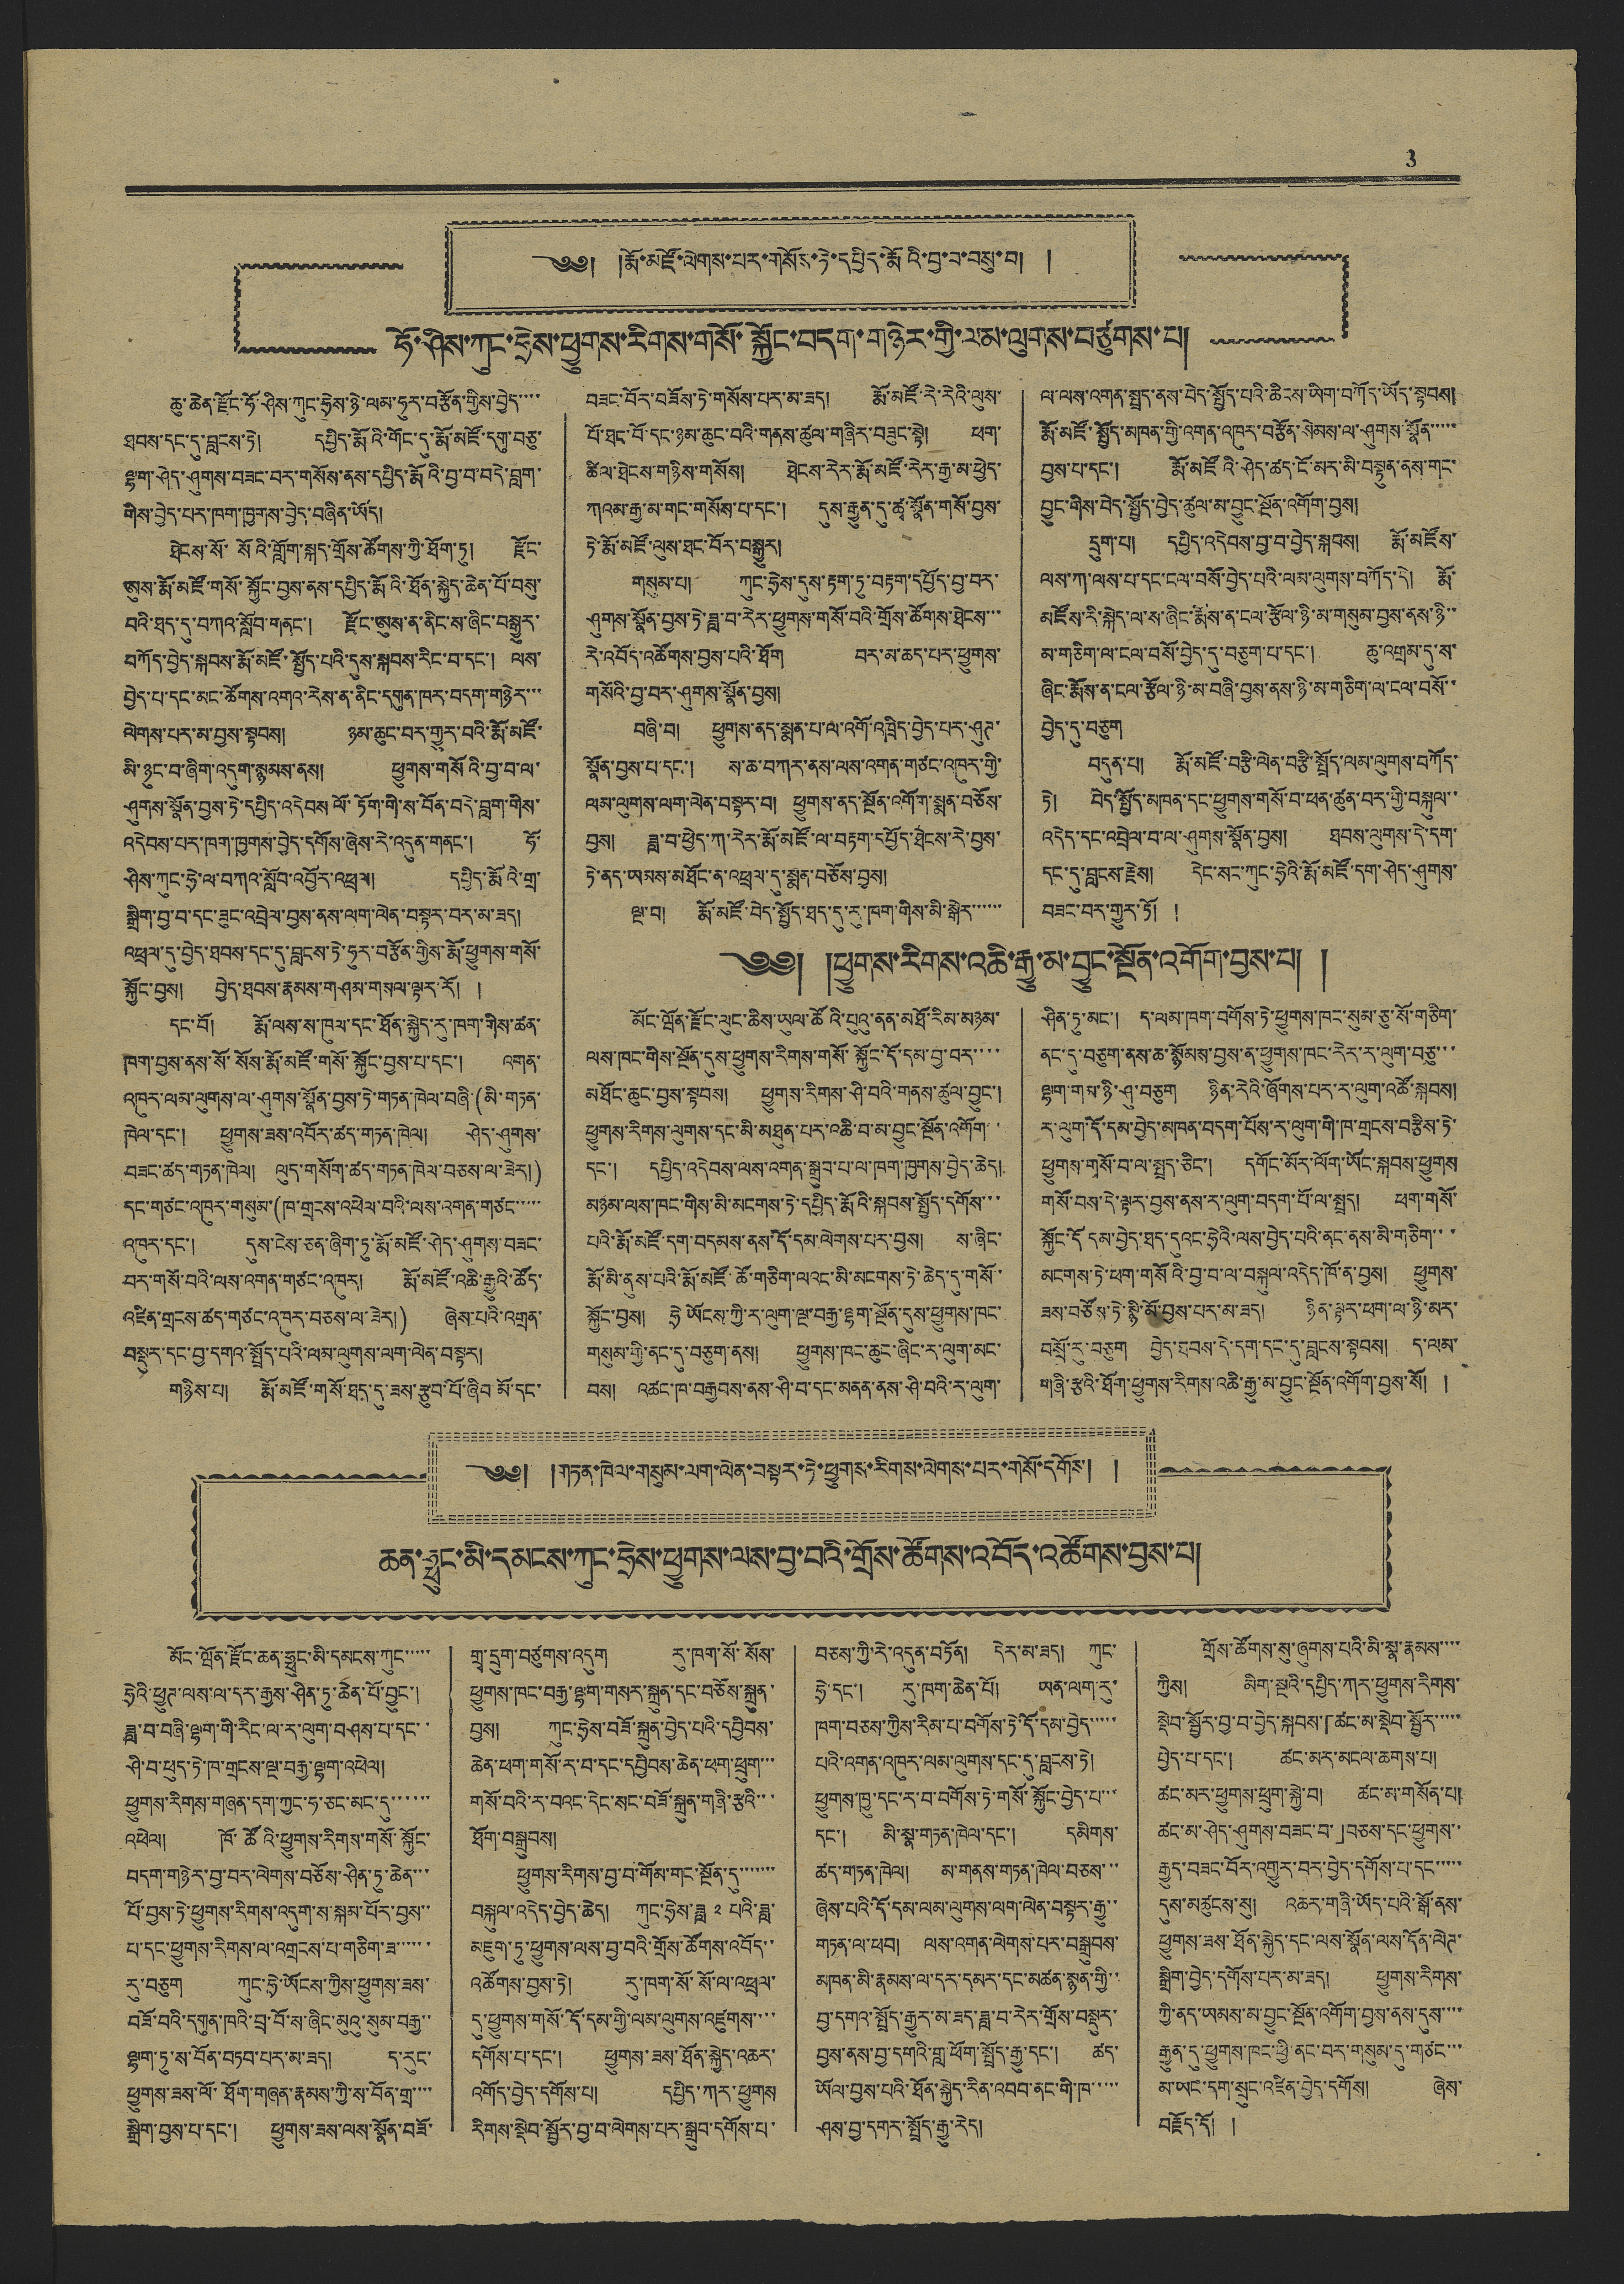3
༄༅། །རྨོ་མཛོ་ལེགས་པར་གསོས་ཏེ་དཔྱིད་རྨོའི་བྱ་བ་བསུ་བ། །
ཧོ་ཤིས་ཀུང་ཧྲེས་ཕྱུགས་རིགས་གསོ་སྐྱོང་བདག་གཉེར་གྱི་ལམ་ལུགས་བཙུགས་པ།
ཆུ་ཆེན་རྫོང་ཧོ་ཤིས་ཀུང་ཧྲེས་ཉེ་ལམ་ཧུར་བརྩོན་གྱིས་བྱེད་་་་
ཐབས་དང་དུ་བླངས་ཏེ། དཔྱིད་རྨོའི་གོང་དུ་རྨོ་མཛོ་དགུ་བཅུ་
ལྷག་ཤེད་ཤུགས་བཟང་བར་གསོས་ནས་དཔྱིད་རྨོའི་བྱ་བ་བདེ་བླག་
གིས་བྱེད་པར་ཁག་ཁྱགས་བྱེད་བཞིན་ཡོད།
ཐེངས་སོ་སོའི་གློག་སྐད་གྲོས་ཐོགས་ཀྱི་ཐོག་ཏུ། རྫོང་
ཨུས་རྨོ་མཛོ་གསོ་སྐྱོང་བྱས་ནས་དཔྱིད་རྨོའི་ཐོན་སྐྱེད་ཆེན་པོ་བསུ་
བའི་ཐད་དུ་བཀའ་སློབ་གནང་། རྫོང་ཨུས་ན་ནིང་ས་ཞིང་བསྒྱུར་
བཀོད་བྱེད་སྐབས་རྨོ་མཛོ་སྤྱོད་པའི་དུས་སྐབས་རིང་བ་དང་། ལས་
བྱེད་པ་དང་མང་ཚོགས་འགའ་རེས་ན་ནིང་དགུན་ཁར་བདག་གཉེར་་་
ལེགས་པར་མ་བྱས་སྟབས། ཉམ་ཆུང་བར་གྱུར་བའི་རྨོ་མཛོ་
མི་ཉུང་བ་ཞིག་འདུག་སྙམས་ནས། ཕྱུགས་གསོའི་བྱ་བ་ལ་
ཤུགས་སྣོན་བྱས་ཏེ་དཔྱིད་འདེབས་ལོ་ཏོག་གི་ས་བོན་བདེ་བླག་གིས་
འདེབས་པར་ཁག་ཁྱགས་བྱེད་དགོས་ཞེས་རེ་འདུན་གནང་། ཧོ་
ཤིས་ཀུང་ཧྲེ་ལ་བཀའ་སློབ་འབྱོར་འཕྲལ། དཔྱིད་རྨོའི་གྲ་
སྒྲིག་བྱ་བ་དང་ཟུང་འབྲེལ་བྱས་ནས་ལག་ལེན་བསྟར་བར་མ་ཟད།
འཕྲལ་དུ་བྱེད་ཐབས་དང་དུ་བླངས་ཏེ་ཧུར་བརྩོན་གྱིས་རྨོ་ཕྱུགས་གསོ་
སྐྱོང་བྱས། བྱེད་ཐབས་རྣམས་གཤམ་གསལ་ལྟར་རོ། །
དང་བོ། རྨོ་ལས་ས་ཁུལ་དང་ཐོན་སྐྱེད་རུ་ཁག་གིས་ཚན་
ཁག་བྱས་ནས་སོ་སོས་རྨོ་མཛོ་གསོ་སྐྱོང་བྱས་པ་དང་། འགན་
འཁུར་ལམ་ལུགས་ལ་ཤུགས་སྣོན་བྱས་ཏེ་གཏན་ཁེལ་བཞི་(མི་གཏན་
ཁེལ་དང་། ཕྱུགས་ཟས་འབོར་ཚད་་གཏན་ཁེལ། ཤེད་ཤུགས་
བཟང་ཚད་གཏན་ཁེལ། ལུད་གསོག་ཚད་གཏན་ཁེལ་བཅས་ལ་ཟེར།)
དང་གཙང་འཁུར་གསུམ་(ཁ་གྲངས་འཕེལ་བའི་ལས་འགན་གཙང་་་་་
འཁུར་དང་། དུས་ངེས་ཅན་ཞིག་ཏུ་རྨོ་མཛོ་ཤེད་ཤུགས་བཟང་
བར་གསོ་བའི་ལས་འགན་གཙང་འཁུར། རྨོ་མཛོ་འཆི་རྒྱུའི་ཚོད་
འཛིན་གྲངས་ཚད་གཙང་འཁུར་བཅས་ལ་ཟེར།) ཞེས་པའི་འགྲན་
བསྡུར་དང་བྱ་དགའ་སྤྲོད་པའི་ལམ་ལུགས་ལག་ལེན་བསྟར།
གཉིས་པ། རྨོ་མཛོ་གསོ་ཐད་དུ་ཟས་རྩུབ་པོ་ཞིབ་མོ་དང་
བཟང་བོར་བཟོས་ཏེ་གསོས་པར་མ་ཟད། རྨོ་མཛོ་རེ་རེའི་ལུས་
པོ་ཐང་བོ་དང་ཉམ་ཆུང་བའི་གནས་ཚུལ་གཞིར་བཟུང་སྟེ། ཕག་
ཚིལ་ཐེངས་གཉིས་གསོས། ཐེངས་རེར་རྨོ་མཛོ་རེར་རྒྱ་མ་ཕྱེད་
ཀའམ་རྒྱ་མ་གང་གསོས་པ་དང་། དུས་རྒྱུན་དུ་ཚྭ་སྣོན་གསོ་བྱས་
ཏེ་རྨོ་མཛོ་ལུས་ཐང་བོར་བསྒྱུར།
གསུམ་པ། ཀུང་ཧྲེས་དུས་རྟག་ཏུ་བརྟག་དཔྱོད་བྱ་བར་
ཤུགས་སྣོན་བྱས་ཏེ་ཟླ་བ་རེར་ཕྱུགས་གསོ་བའི་གྲོས་ཚོགས་ཐེངས་་་
རེ་འབོད་འཚོགས་བྱས་པའི་ཐོག བར་མ་ཆད་པར་ཕྱུགས་
གསོའི་བྱ་བར་ཤུགས་སྣོན་བྱས།
བཞི་བ། ཕྱུགས་ནད་སྨན་པ་ལ་འགོ་འཁྲིད་བྱེད་པར་ཤུཊ་
སྣོན་བྱས་པ་དང་། ས་ཆ་བཀར་ནས་ལས་འགན་གཙང་འཁུར་གྱི་
ལམ་ལུགས་ལག་ལེན་བསྟར་བ། ཕྱུགས་ནད་སྔོན་འགོག་སྨན་བཅོས་
བྱས། ཟླ་བ་ཕྱེད་ཀ་རེར་རྨོ་མཛོ་ལ་བརྟག་དཔྱོད་ཐེངས་རེ་བྱས་
ཏེ་ནད་ཡམས་མཐོང་ན་འཕྲལ་དུ་སྨན་བཅོས་བྱས།
ལྔ་བ། རྨོ་མཛོ་བེད་སྤྱོད་ཐད་དུ་རུ་ཁག་གིས་མི་སྒེར་་་་་་
ལ་ལས་འགན་སྤྲད་ནས་བེད་སྤྱོད་པའི་ཆིངས་ཡིག་བཀོད་ཡོད་སྟབས།
རྨོ་མཛོ་སྤྱོད་མཁན་གྱི་འགན་འཁུར་བརྩོན་སེམས་ལ་ཤུགས་སྣོན་་་་་
བྱས་པ་དང་། རྨོ་མཛོའི་ཤེད་ཚད་ངོ་མར་མི་བསྟུན་ནས་གང་
བྱུང་གིས་བེད་སྤྱོད་བྱེད་ཚུལ་མ་བྱུང་སྔོན་འགོག་བྱས།
དྲུག་པ། དཔྱིད་འདེབས་བྱ་བ་བྱེད་སྐབས། རྨོ་མཛོས་
ལས་ཀ་ལས་པ་དང་ངལ་བསོ་བྱེད་པའི་ལམ་ལུགས་བཀོད་དེ། རྨོ་
མཛོས་རི་སྐེད་ལ་ས་ཞིང་རྨོས་ན་ངལ་རྩོལ་ཉི་མ་གསུམ་བྱས་ནས་ཉི་་
མ་གཅིག་ལ་ངལ་བསོ་བྱེད་དུ་བཅུག་པ་དང་། ཆུ་འགྲམ་དུ་ས་
ཞིང་རྨོས་ན་ང་རྩོལ་ཉི་མ་བཞི་བྱས་ནས་ཉི་མ་གཅིག་ལ་ངལ་བསོ་་
བྱེད་དུ་བཅུག
བདུན་པ། རྨོ་མཛོ་བརྩི་ལེན་བརྩི་སྤྲོད་ལམ་ལུགས་བཀོད་
ཏེ། བེད་སྤྱོད་མཁན་དང་ཕྱུགས་གསོ་བ་ཕན་ཚུན་བར་གྱི་བསྐུལ་་
འདེད་དང་འབྲེལ་བ་ལ་ཤུགས་སྣོན་བྱས། ཐབས་ལུགས་དེ་དག་
དང་དུ་བླངས་རྗེས། དེང་སང་ཀུང་ཧྲེའི་རྨོ་མཛོ་དག་ཤེད་ཤུགས་
བཟང་བར་གྱུར་ཏོ། །
༄༅། །ཕྱུགས་རིགས་འཆི་རྒྱུ་མ་བྱུང་སྔོན་འགོག་བྱས་པ། །
མོང་ཝོན་རྫོང་ལུང་ཆིས་ཡུལ་ཚོའི་པུའུ་ནན་མཐོ་རིམ་མཉམ་
ལས་ཁང་གིས་སྔོན་དུས་ཕྱུགས་རིགས་གསོ་སྐྱོང་དོ་དམ་བྱ་བར་་་་
མཐོང་ཆུང་བྱས་སྟབས། ཕྱུགས་རིགས་ཤི་བའི་གནས་ཚུལ་བྱུང་།
ཕྱུགས་རིགས་ལུགས་དང་མི་མཐུན་པར་འཆི་བ་མ་བྱུང་སྔོན་འགོག་
དང་། དཔྱིད་འདེབས་ལས་འགན་སྒྲུབ་པ་ལ་ཁག་ཁྱགས་བྱེད་ཆེད།
མཉམ་ལས་ཁང་གིས་མི་མངགས་ཏེ་དཔྱིད་རྨོའི་སྐབས་སྤྱོད་དགོས་་་
པའི་རྨོ་མཛོ་དག་བདམས་ནས་དོ་དམ་ལེགས་པར་བྱས། ས་ཞིང་
རྨོ་མི་ནུས་པའི་རྨོ་མཛོ་ཚོ་གཅིག་ལའང་མི་མངགས་ཏེ་ཆེད་དུ་གསོ་
སྐྱོང་བྱས། ཧྲེ་ཡོངས་ཀྱི་ར་ལུག་ལྔ་བརྒྱ་ལྷག་སྔོན་དུས་ཕྱུགས་ཁང་
གསུམ་གྱི་ནང་དུ་བཅུག་ནས། ཕྱུགས་ཁང་ཆུང་ཞིང་ར་ལུག་མང་
བས། འཚང་ཁ་བརྒྱབས་ནས་ཤི་བ་དང་མནན་ནས་ཤི་བའི་ར་ལུག་
ཤིན་ཏུ་མང་། ད་ལམ་ཁག་བགོས་ཏེ་ཕྱུགས་ཁང་སུམ་ཅུ་སོ་གཅིག་
ནང་དུ་བཅུག་ནས་ཆ་སྙོམས་བྱས་ན་ཕྱུགས་ཁང་རེར་ར་ལུག་བཅུ་་་
ལྷག་གམ་ཉི་ཤུ་བཅུག ཉིན་རེའི་ཞོགས་པར་ར་ལུག་འཚོ་སྐབས།
ར་ལུག་དོ་དམ་བྱེད་མཁན་བདག་པོས་ར་ལུག་གི་ཁ་གྲངས་བརྩིས་ཏེ་
ཕྱུགས་གསོ་བ་ལ་སྤྲད་ཅིང་། དགོང་མོར་ལོག་ཡོང་སྐབས་ཕྱུགས
གསོ་བས་དེ་ལྟར་བྱས་ནས་ར་ལུག་བདག་པོ་ལ་སྤྲད། ཕག་གསོ་
སྐྱོང་དོ དམ་བྱེད་ཐད་དུའང་ཧྲེའི་ལས་བྱེད་པའི་ནང་ནས་མི་གཅིག་་་
མངགས་ཏེ་ཕག་གསོའི་བྱ་བ་ལ་བསྐུལ་འདེད་ཁོ་ན་བྱས། ཕྱུགས་
ཟས་བཙོས་ཏེ་སྙི་མོ་བྱས་པར་མ་ཟད། ཉིན་ལྟར་ཕག་ལ་ཉི་མར་
བསྲོ་རུ་བཅུག བྱེད་ཐབས་དེ་དག་དང་དུ་བླངས་སྟབས། ད་ལམ་
གཞི་རྩའི་ཐོག་ཕྱུགས་རིགས་འཆི་རྒྱུ་མ་བྱུང་སྔོན་འགོག་བྱས་སོ། །
༄༅། །གཏན་ཁེལ་གསུམ་ལག་ལེན་བསྟར་ཏེ་ཕྱུགས་རིགས་ལེགས་པར་གསོ་དགོས། །
ཆན་ཧྥུང་མི་དམངས་ཀུང་ཧྲེས་ཕྱུགས་ལས་བྱ་བའི་གྲོས་ཚོགས་འབོད་འཚོགས་བྱས་པ།
མོང་ཝོན་རྫོང་ཆན་ཧྥུང་མི་དམངས་ཀུང་་་་་
ཧྲེའི་ཕྱུཊ་ལས་ལ་དར་རྒྱས་ཤིན་ཏུ་ཆེན་པོ་བྱུང་།
ཟླ་བ་བཞི་ལྷག་གི་རིང་ལ་ར་ལུག་བཤས་པ་དང་་
ཤི་བ་ཕུད་ཏེ་ཁ་གྲངས་ལྔ་བརྒྱ་ལྷག་འཕེལ།
ཕྱུགས་རིགས་གཞན་དག་ཀྱང་ཧ་ཅང་མང་དུ་་་་་་
འཕེལ། ཁོ་ཚོའི་ཕྱུགས་རིགས་གསོ་སྐྱོང་
བདག་གཉེར་བྱ་བར་ལེགས་བཅོས་ཤིན་ཏུ་ཆེན་་་
པོ་བྱས་ཏེ་ཕྱུགས་རིགས་འདུག་ས་སྐམ་པོར་བྱས་་
པ་དང་ཕྱུགས་རིགས་ལ་འགྲངས་པ་གཅིག་ཟ་་་་་་
རུ་བཅུག ཀུང་ཧྲེ་ཡོངས་ཀྱིས་ཕྱུགས་ཟས་
བཟོ་བའི་དགུན་ཁའི་བྲ་བོ་ས་ཞིང་མུའུ་སུམ་བརྒྱ་་
ལྷག་ཏུ་ས་བོན་བཏབ་པར་མ་ཟད། ད་རུང་
ཕྱུགས་ཟས་ལོ་ཐོག་གཞན་རྣམས་ཀྱི་ས་བོན་གྲ་་་་
སྒྲིག་བྱས་པ་དང་། ཕྱུགས་ཟས་ལས་སྣོན་བཟོ་
གྲྭ་དྲུག་བཙུགས་འདུག རུ་ཁག་སོ་སོས་
ཕྱུགས་ཁང་བརྒྱ་ལྷག་གསར་སྐྲུན་དང་བཅོས་སྐྲུན་
བྱས། ཀུང་ཧྲེས་བཟོ་སྐྲུན་བྱེད་པའི་དབྱིབས་
ཆེན་ཕག་གསོ་ར་བ་དང་དབྱིབས་ཆེན་ཕག་ཕྲུག་་་
གསོ་བའི་ར་བའང་དེང་སང་བཟོ་སྐྲུན་གཞི་རྩའི་་་
ཐོག་བསྒྲུབས།
ཕྱུགས་རིགས་བྱ་བ་གོམ་གང་སྔོན་དུ་་་་་་་
བསྐུལ་འདེད་བྱེད་ཆེད། ཀུང་ཧྲེས་ཟླ ༢ པའི་ཟླ་
མཇུག་ཏུ་ཕྱུགས་ལས་བྱ་བའི་གྲོས་ཚོགས་འབོད་་
འཚོགས་བྱས་ཏེ། རུ་ཁག་སོ་སོ་ལ་འཕྲལ་
དུ་ཕྱུགས་གསོ་དོ་དམ་གྱི་ལམ་ལུགས་འཛུགས་་་་
དགོས་པ་དང་། ཕྱུགས་ཟས་ཐོན་སྐྱེད་འཆར་
འགོད་བྱེད་དགོས་པ། དཔྱིད་ཀར་ཕྱུགས
རིགས་སྡེབ་སྦྱོར་བྱ་བ་ལེགས་པར་སྒྲུབ་དགོས་པ་
བཅས་ཀྱི་རེ་འདུན་བཏོན། དེར་མ་ཟད། ཀུང་
ཧྲེ་དང་། རུ་ཁག་ཆེན་པོ། ཡན་ལག་རུ་
ཁག་བཅས་ཀྱིས་རིམ་པ་བགོས་ཏེ་དོ་དམ་བྱེད་་་་་
པའི་འགན་འཁུར་ལམ་ལུགས་དང་དུ་བླངས་ཏེ།
ཕྱུགས་ཁྱུ་དང་ར་བ་བགོས་ཏེ་གསོ་སྐྱོང་བྱེད་པ་་་
དང་། མི་སྣ་གཏན་ཁེལ་དང་། དམིགས་
ཚད་གཏན་ཁེལ། མ་གནས་གཏན་ཁེལ་བཅས་་་
ཞེས་པའི་དོ་དམ་ལམ་ལུགས་ལག་ལེན་བསྟར་རྒྱུ་་
གཏན་ལ་ཕབ། ལས་འགན་ལེགས་པར་བསྒྲུབས་
མཁན་མི་རྣམས་ལ་དར་དམར་དང་མཚན་སྙན་གྱི་་
བྱ་དགའ་སྤྲོད་རྒྱུར་མ་ཟད་ཟླ་བ་རེར་གྲོས་བསྡུར་
བྱས་ནས་བྱ་དགའི་གླ་ཕོག་སྤྲོད་རྒྱུ་དང་། ཚད་
ཡོལ་བྱས་པའི་ཐོན་སྐྱེད་རིན་འབབ་ནང་གི་ཁ་་་་་
ཤས་བྱ་དགར་སྤྲོད་རྒྱུ་རེད།
གྲོས་ཚོགས་སུ་ཞུགས་པའི་མི་སྣ་རྣམས་་་་
ཀྱིས། མིག་སྔའི་དཔྱིད་ཀར་ཕྱུགས་རིགས་
སྡེབ་སྦྱོར་བྱ་བ་བྱེད་སྐབས་「ཚང་མ་སྡེབ་སྦྱོར་་་་་
བྱེད་པ་དང་། ཚང་མར་མངལ་ཆགས་པ།
ཚང་མར་ཕྱུགས་ཕྲུག་སྐྱེ་བ། ཚང་མ་གསོན་པ།
ཚང་མ་ཤེད་ཤུགས་བཟང་བ་」བཅས་དང་ཕྱུགས་
རྒྱུད་བཟང་བོར་འགྱུར་བར་བྱེད་དགོས་པ་དང་་་་་
དུས་མཚུངས་སུ། འཆར་གཞི་ཡོད་པའི་སྒོ་ནས་
ཕྱུགས་ཟས་ཐོན་སྐྱེད་དང་ལས་སྣོན་ལས་དོན་ལེཊ་
སྒྲིག་བྱེད་དགོས་པར་མ་ཟད། ཕྱུགས་རིགས་
ཀྱི་ནད་ཡམས་མ་བྱུང་སྔོན་འགོག་བྱས་ནས་དུས་་་་
རྒྱུན་དུ་ཕྱུགས་ཁང་ཕྱི་ནང་བར་གསུམ་དུ་གཙང་་་
མ་ཡང་དག་སྲུན་བཛིན་བྱེད་དགོས། ཞེས་
བརྗོད་དོ། །
